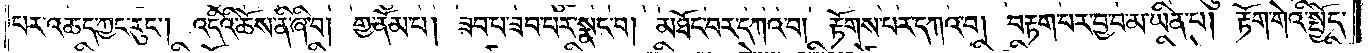པར་འཆད་ཀྱང་རུང༌། འདིའི་ཆོས་ནི་ཞི་བ། གྱ་ནོམ་པ། ཟབ་པ་ཟབ་པར་སྣང་བ། མཐོང་བར་དཀའ་བ། རྟོགས་པར་དཀའ་བ། བརྟག་པར་བྱ་བ་མ་ཡིན་པ། རྟོག་གེའི་སྤྱོད་
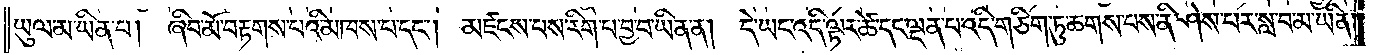ཡུལ་མ་ཡིན་པ། ཞིབ་མོ་བརྟགས་པའི་མཁས་པ་དང༌། མཛངས་པས་རིག་པ་བྱ་བ་ཡིན་ན། དེ་ཡང་འདི་ལྟར་ཚེ་དང་ལྡན་པ་འདི་གཅིག་ཏུ་ཆགས་པས་ནི་ཤེས་པར་སླ་བ་མ་ཡིན་
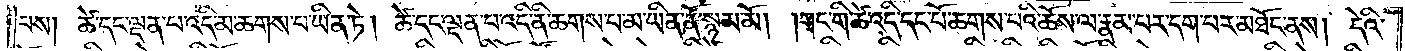པས། ཚེ་དང་ལྡན་པ་འདི་མ་ཆགས་པ་ཡིན་ཏེ། ཚེ་དང་ལྡན་པ་འདི་ནི་ཆགས་པ་མ་ཡིན་ནོ་སྙམ་མོ། །གང་གི་ཚེ་འདི་དང་པོ་ཆགས་པའི་ཆོས་ལ་རྣམ་པར་དག་པར་མཐོང་ནས། དེའི་
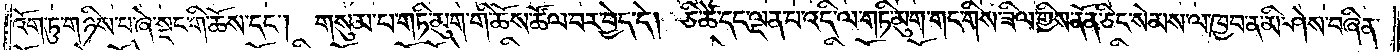འོག་ཏུ་གཉིས་པ་ཞེ་སྡང་གི་ཆོས་དང༌། གསུམ་པ་གཏི་མུག་གི་ཆོས་ཚོལ་བར་བྱེད་དེ། ཅི་ཚེ་དང་ལྡན་པ་འདི་ལ་གཏི་མུག་གང་གིས་ཟིལ་གྱིས་ནོན་ཅིང་སེམས་ལ་ཁྱབ་ན་མི་ཤེས་བཞིན་
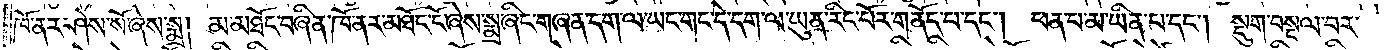ཁོ་ནར་ཤེས་སོ་ཞེས་སྨྲ། མ་མཐོང་བཞིན་ཁོ་ནར་མཐོང་ངོ་ཞེས་སྨྲ་ཞིང་གཞན་དག་ལ་ཡང་གང་དེ་དག་ལ་ཡུན་རིང་པོར་གནོད་པ་དང༌། ཕན་པ་མ་ཡིན་པ་དང༌། སྡུག་བསྔལ་བར་
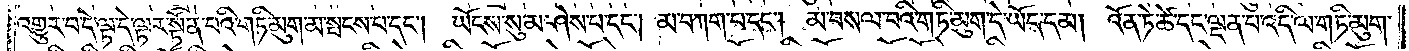འགྱུར་བ་དེ་ལྟ་དེ་ལྟར་སྟོན་པའི་གཏི་མུག་མ་སྤངས་པ་དང༌། ཡོངས་སུ་མ་ཤེས་པ་དང༌། མ་བཀག་པ་དང༌། མ་བསལ་བའི་གཏི་མུག་དེ་ཡོད་དམ། འོན་ཏེ་ཚེ་དང་ལྡན་པ་འདི་ལ་གཏི་མུག་
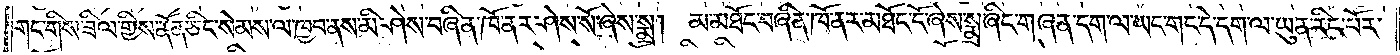གང་གིས་ཟིལ་གྱིས་ནོན་ཅིང་སེམས་ལ་ཁྱབ་ནས་མི་ཤེས་བཞིན་ཁོ་ནར་ཤེས་སོ་ཞེས་སྨྲ། མ་མཐོང་བཞིན་ཁོ་ནར་མཐོང་ངོ་ཞེས་སྨྲ་ཞིང་གཞན་དག་ལ་ཡང་གང་དེ་དག་ལ་ཡུན་རིང་པོར་
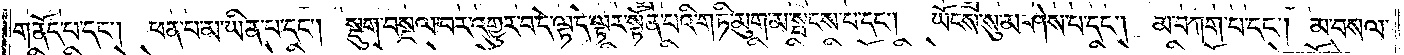གནོད་པ་དང༌། ཕན་པ་མ་ཡིན་པ་དང༌། སྡུག་བསྔལ་བར་འགྱུར་བ་དེ་ལྟ་དེ་ལྟར་སྟོན་པའི་གཏི་མུག་མ་སྤངས་པ་དང༌།   ཡོངས་སུ་མ་ཤེས་པ་དང༌། མ་བཀག་པ་དང༌། མ་བསལ་
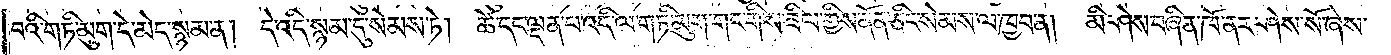བའི་གཏི་མུག་དེ་མེད་སྙམ་ན། དེ་འདི་སྙམ་དུ་སེམས་ཏེ།   ཚེ་དང་ལྡན་པ་འདི་ལ་གཏི་མུག་གང་གིས་ཟིལ་གྱིས་ནོན་ཅིང་སེམས་ལ་ཁྱབ་ན། མི་ཤེས་བཞིན་ཁོ་ནར་ཤེས་སོ་ཞེས་
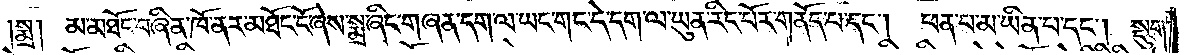།སྨྲ། མ་མཐོང་བཞིན་ཁོ་ནར་མཐོང་ངོ་ཞེས་སྨྲ་ཞིང་གཞན་དག་ལ་ཡང་གང་དེ་དག་ལ་ཡུན་རིང་པོར་གནོད་པ་དང༌།   ཕན་པ་མ་ཡིན་པ་དང༌། སྡུག་
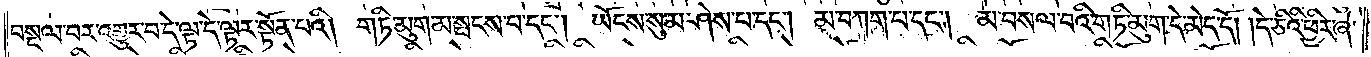བསྔལ་བར་འགྱུར་བ་དེ་ལྟ་དེ་ལྟར་སྟོན་པའི། གཏི་མུག་མ་སྤངས་པ་དང༌། ཡོངས་སུ་མ་ཤེས་པ་དང༌། མ་བཀག་པ་དང༌། མ་གསལ་བའི་གཏི་མུག་དེ་མེད་དོ། །དེ་ཅིའི་ཕྱིར་ཞེ་
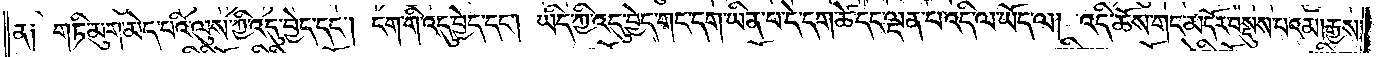ན། གཏི་མུག་མེད་པའི་ལུས་ཀྱི་འདུ་བྱེད་དང༌། ངག་གི་འདུ་བྱེད་དང༌། ཡིད་ཀྱི་འདུ་བྱེད་གང་དག་ཡིན་པ་དེ་དག་ཚེ་དང་ལྡན་པ་འདི་ལ་ཡོད་ལ། འདི་ཆོས་གང་མདོར་བསྡུས་པའམ། རྒྱས་
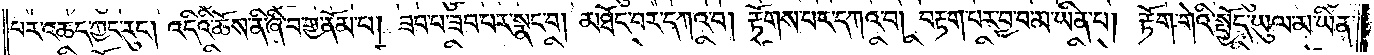པར་འཆད་ཀྱང་རུང༌། འདིའི་ཆོས་ནི་ཞི་བ་གྱ་ནོམ་པ། ཟབ་པ་ཟབ་པར་སྣང་བ། མཐོང་བར་དཀའ་བ། རྟོགས་པར་དཀའ་བ། བརྟག་པར་བྱ་བ་མ་ཡིན་པ། རྟོག་གེའི་སྤྱོད་ཡུལ་མ་ཡིན་
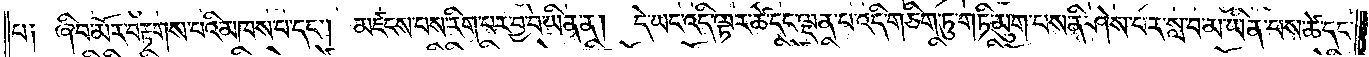པ། ཞིབ་མོར་བརྟགས་པའི་མཁས་པ་དང༌། མཛངས་པས་རིག་པར་བྱ་བ་ཡིན་ན། དེ་ཡང་འདི་ལྟར་ཚེ་དང་ལྡན་པ་འདི་གཅིག་ཏུ་གཏི་མུག་པས་ནི་ཤེས་པར་སླ་བ་མ་ཡིན་པས་ཚེ་དང་
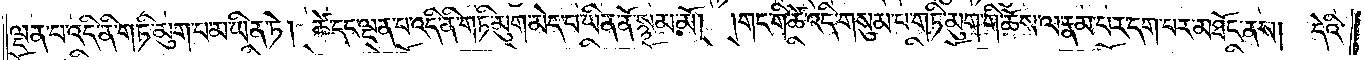ལྡན་པ་འདི་ནི་གཏི་མུག་པ་མ་ཡིན་ཏེ། ཚེ་དང་ལྡན་པ་འདི་ནི་གཏི་མུག་མེད་པ་ཡིན་ནོ་སྙམ་མོ། །གང་གི་ཚེ་འདི་གསུམ་པ་གཏི་མུག་གི་ཆོས་ལ་རྣམ་པར་དག་པར་མཐོང་ནས། དེའི་
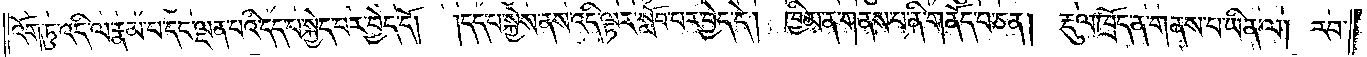འོག་ཏུ་འདི་ལ་རྣམ་པ་དང་ལྡན་པའི་དད་པ་སྐྱེད་པར་བྱེད་དོ།  །དད་པ་སྐྱེས་ནས་འདི་ལྟར་སློབ་པར་བྱེད་དེ། ཁྱིམ་ན་གནས་པ་ནི་གནོད་པ་ཅན། རྡུལ་ཁྲོད་ན་གནས་པ་ཡིན་ལ། རབ་
